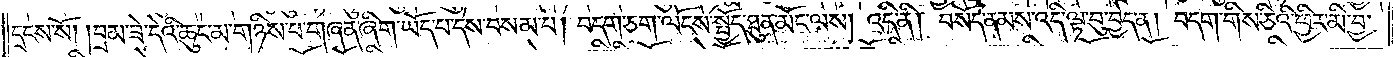དྲངས་སོ། །བྲམ་ཟེ་དེའི་ཆུང་མ་གཉིས་པ་གཞན་ཞིག་ཡོད་པ་དེས་བསམ་པ། བདག་ཅག་ལོངས་སྤྱོད་ཐུན་མོང་ལས། འདི་ནི། བསོད་ནམས་འདི་ལྟ་བུ་བྱེད་ན། བདག་གིས་ཅིའི་ཕྱིར་མི་བྱ་
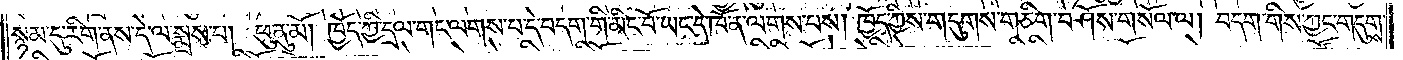སྙམ་དུ་རིག་ནས་དེ་ལ་སྨྲས་པ། ཕུ་ནུ་མོ། ཁྱོད་ཀྱི་དྲལ་གང་ལགས་པ་དེ་བདག་གི་མིང་པོ་ཡང་དེ་ཁོ་ན་ལགས་པས། ཁྱོད་ཀྱིས་གདུགས་གཅིག་བཤོས་གསོལ་ལ། བདག་གིས་ཀྱང་གདུགས་
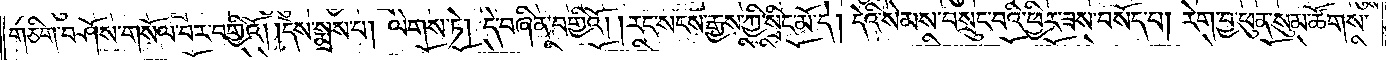གཅིག་བཤོས་གསོལ་བར་བགྱིའོ། །དེས་སྨྲས་པ། ལེགས་ཏེ། དེ་བཞིན་བགྱིའོ། །རང་སངས་རྒྱས་ཀྱི་སྲིང་མོ་དེ། དེའི་སེམས་བསྲུང་བའི་ཕྱིར་ཟས་བསོད་པ། རེག་བྱ་ཕུན་སུམ་ཚོགས་
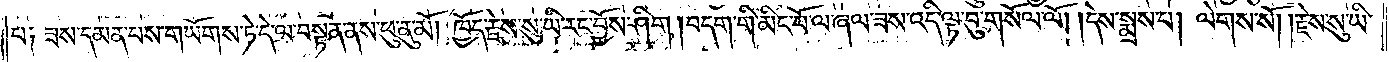པ། ཟས་དམན་པས་གཡོགས་ཏེ་དེ་ལ་བསྟན་ནས་ཕུ་ནུ་མོ། ཁྱོད་རྗེས་སུ་ཡི་རང་བྱོས་ཤིག །བདག་གི་མིང་པོ་ལ་ཞལ་ཟས་འདི་ལྟ་བུ་གསོལ་ལོ། །དེས་སྨྲས་པ། ལེགས་སོ། །རྗེས་སུ་ཡི་
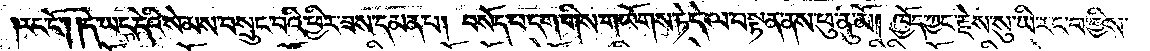རང་ངོ༌། །དེ་ཡང་དེའི་སེམས་བསྲུང་བའི་ཕྱིར་ཟས་དམན་པ། བསོད་པ་དག་གིས་གཡོགས་ཏེ་དེ་ལ་བསྟན་ནས་ཕུ་ནུ་མོ། ཁྱོད་ཀྱང་རྗེས་སུ་ཡི་རང་བ་གྱིས་
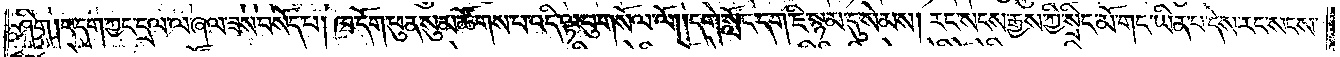ཤིག །བདག་ཀྱང་དྲལ་ལ་ཞལ་ཟས་བསོད་པ། ཁ་དོག་ཕུན་སུམ་ཚོགས་པ་འདི་ལྟ་བུ་གསོལ་ལོ། །དགེ་སློང་དག་ཇི་སྙམ་དུ་སེམས། རང་སངས་རྒྱས་ཀྱི་སྲིང་མོ་གང་ཡིན་པ་དེས་རང་སངས་
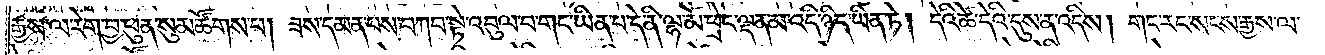རྒྱས་ལ་རེག་བྱ་ཕུན་སུམ་ཚོགས་པ། ཟས་དམན་པས་བཀབ་སྟེ་འབུལ་བ་གང་ཡིན་པ་དེ་ནི་ལྷ་མོ་ཕྲེང་ལྡན་མ་འདི་ཉིད་ཡིན་ཏེ། དེའི་ཚེ་དེའི་དུས་ན་འདིས། གང་རང་སངས་རྒྱས་ལ་
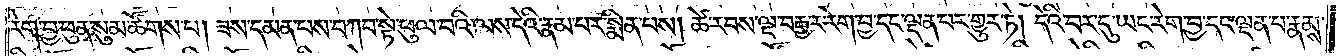རེག་བྱ་ཕུན་སུམ་ཚོགས་པ། ཟས་དམན་པས་བཀབ་སྟེ་ཕུལ་བའི་ལས་དེའི་རྣམ་པར་སྨིན་པས། ཚེ་རབས་ལྔ་བརྒྱ་ར་རེག་བྱ་དང་ལྡན་པར་གྱུར་ཏེ། དེའི་བར་དུ་ཡང་རེག་བྱ་དང་ལྡན་པ་རྣམས་
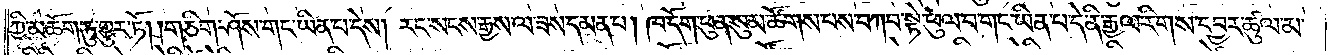ཀྱི་མཆོག་ཏུ་གྱུར་ཏོ། །གཅིག་ཤོས་གང་ཡིན་པ་དེས། རང་སངས་རྒྱས་ལ་ཟས་དམན་པ། ཁ་དོག་ཕུན་སུམ་ཚོགས་པས་བཀབ་སྟེ་ཕུལ་བ་གང་ཡིན་པ་དེ་ནི་རྒྱལ་རིགས་དབྱར་ཚུལ་མ་
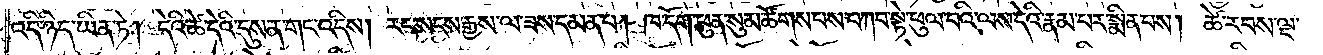འདི་ཉིད་ཡིན་ཏེ། དེའི་ཚེ་དེའི་དུས་ན་གང་འདིས། རང་སངས་རྒྱས་ལ་ཟས་དམན་པ། ཁ་དོག་ཕུན་སུམ་ཚོགས་པས་བཀབ་སྟེ་ཕུལ་བའི་ལས་དེའི་རྣམ་པར་སྨིན་པས། ཚེ་རབས་ལྔ་
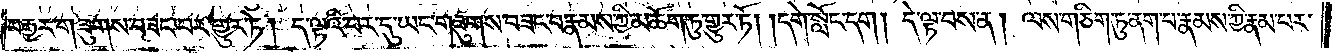བརྒྱར་གཟུགས་བཟང་བར་གྱུར་ཏེ། ད་ལྟའི་བར་དུ་ཡང་གཟུགས་བཟང་བ་རྣམས་ཀྱི་མཆོག་ཏུ་གྱུར་ཏོ། །དགེ་སློང་དག། དེ་ལྟ་བས་ན། ལས་གཅིག་ཏུ་ནག་པ་རྣམས་ཀྱི་རྣམ་པར་
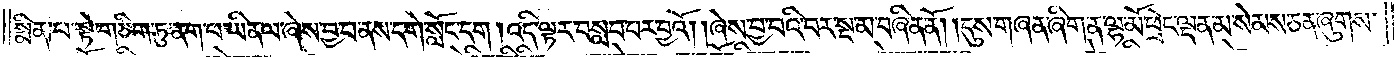སྨིན་པ་སྟེ་གཅིག་ཏུ་ནག་པ་ཡིན་ལ་ཞེས་བྱ་བ་ནས་དགེ་སློང་དག །འདི་ལྟར་བསླབ་པར་བྱའོ། །ཞེས་བྱ་བའི་བར་སྔ་མ་བཞིན་ནོ། །དུས་གཞན་ཞིག་ན་ལྷ་མོ་ཕྲེང་ལྡན་མ་སེམས་ཅན་ཞུགས་
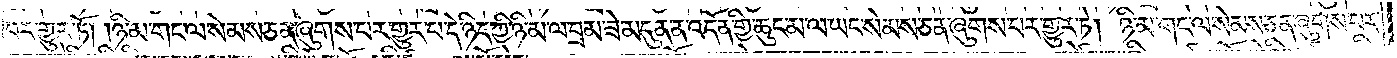བར་གྱུར་ཏོ། །ཉི་མ་གང་ལ་སེམས་ཅན་ཞུགས་པར་གྱུར་པ་དེ་ཉིད་ཀྱི་ཉི་མ་ལ་བྲམ་ཟེ་མདུན་ན་འདོན་གྱི་ཆུང་མ་ལ་ཡང་སེམས་ཅན་ཞུགས་པར་གྱུར་ཏེ། ཉི་མ་གང་ལ་སེམས་ཅན་ཞུགས་པར་
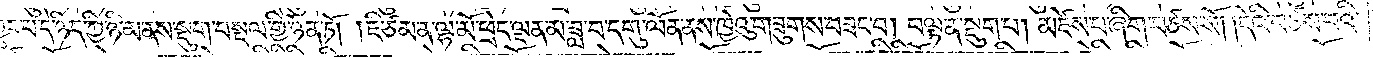གྱུར་པ་དེ་ཉིད་ཀྱི་ཉི་མ་ནས་སྡུག་བསྔལ་གྱི་ཉེན་ཏོ། །ཇི་ཙམ་ན་ལྷ་མོ་ཕྲེང་ལྡན་མ་ཟླ་བ་དགུ་ལོན་ནས་ཁྱེའུ་གཟུགས་བཟང་བ། བལྟ་ན་སྡུག་པ། མཛེས་པ་ཞིག་བཙས་སོ། །དེའི་བཙས་བའི་
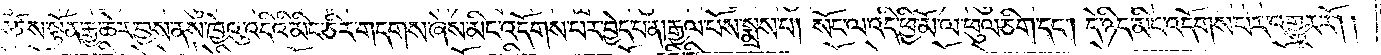བཙས་སྟོན་རྒྱ་ཆེར་བྱས་ནས་ཁྱེའུ་འདིའི་མིང་ཅིར་གདགས་ཞེས་མིང་འདོགས་པར་བྱེད་པ་ན། རྒྱལ་པོས་སྨྲས་པ། སོང་ལ་འདི་ཕྱི་མོ་ལ་ཕུལ་ཅིག་དང༌། དེ་ཉིད་མིང་འདོགས་པར་འགྱུར་རོ། །
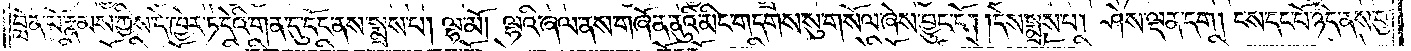བློན་པོ་རྣམས་ཀྱིས་དེ་ཁྱེར་ཏེ་དེའི་གན་དུ་དོང་ནས་སྨྲས་པ། ལྷ་མོ། ལྷའི་ཞལ་ནས་གཞོན་ནུའི་མིང་གདགས་སུ་གསོལ་ཞེས་བྱུང་ངོ༌། །དེས་སྨྲས་པ། ཤེས་ལྡན་དག །ངས་དང་པོ་ཉིད་ནས་བུ་
